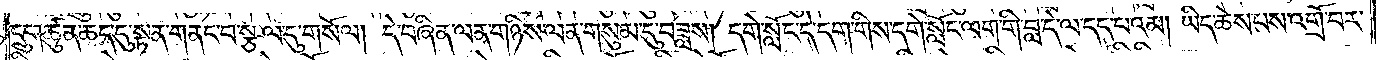དྲུག་ཚུན་ཆད་དུ་སྟན་གནང་བ་སྩལ་དུ་གསོལ། དེ་བཞིན་ལན་གཉིས་ལན་གསུམ་དུ་བཟླས། དགེ་སློང་དེ་དག་གིས་དགེ་སློང་ལག་གི་བླ་དེ་ལ་དད་པའམ། ཡིད་ཆེས་པས་འགྲོ་བར་
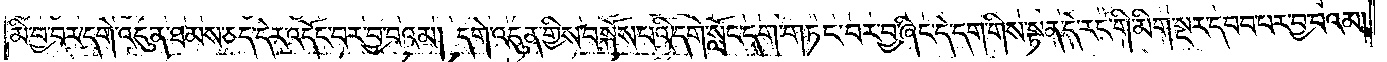མི་བྱ་བར་དགེ་འདུན་ཐམས་ཅད་དེར་འདོང་བར་བྱ་བའམ། དགེ་འདུན་གྱིས་བསྐོས་པའི་དགེ་སློང་དག་གཏང་བར་བྱ་ཞིང་དེ་དག་གིས་སྟན་དེ་རང་གི་མིག་སྔར་དབབ་པར་བྱ་བའམ།
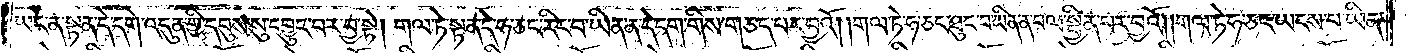ཡང་ན་སྟན་དེ་དགེ་འདུན་གྱི་དབུས་སུ་དབྱུང་བར་བྱ་སྟེ། གལ་ཏེ་སྟན་དེ་ཧ་ཅང་རིང་བ་ཡིན་ན་དེ་དག་གིས་གཅད་པར་བྱའོ། །གལ་ཏེ་ཧ་ཅང་ཐུང་བ་ཡིན་ན་བལ་སྦྱིན་པར་བྱའོ༎གལ་ཏེ་ཧ་ཅང་ཡངས་པ་ཡིན་
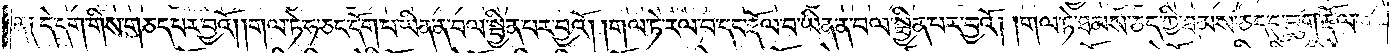ན༑ དེ་དག་གིས་གཅད་པར་བྱའོ། །གལ་ཏེ་ཧ་ཅང་དོག་པ་ཡིན་ན་བལ་སྦྱིན་པར་བྱའོ། །གལ་ཏེ་རལ་པ་དང་རྡོལ་བ་ཡིན་ན་བལ་སྦྱིན་པར་བྱའོ། །གལ་ཏེ་ཐམས་ཅད་ཀྱི་ཐམས་ཅད་དུ་བུག་རྡོལ་
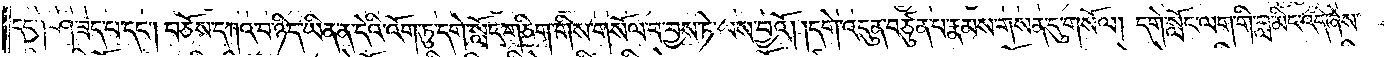དང༌། ཤ་ཟད་པ་དང༌། བཅོས་དཀའ་བ་ཉིད་ཡིན་ན་དེའི་འོག་ཏུ་དགེ་སློང་གཅིག་གིས་གསོལ་བ་བྱས་ཏེ་ལས་བྱའོ། །དགེ་འདུན་བཙུན་པ་རྣམས་གསན་དུ་གསོལ། དགེ་སློང་ལག་གི་བླ་མིང་འདི་ཞེས་
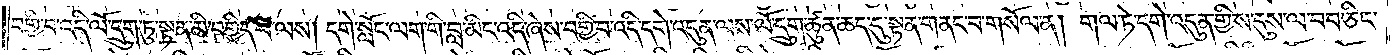བགྱི་བ་འདི་ལོ་དྲུག་ཏུ་སྟན་མི་བགྱིད་པ་ལས། དགེ་སློང་ལག་གི་བླ་མིང་འདི་ཞེས་བགྱི་བ་འདི་དགེ་འདུན་ལས་ལོ་དྲུག་ཚུན་ཆད་དུ་སྟན་གནང་བ་གསོལ་ན། གལ་ཏེ་དགེ་འདུན་གྱིས་དུས་ལ་བབ་ཅིང་
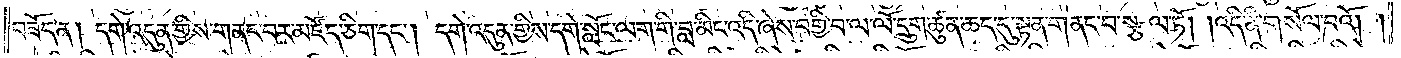བཟོད་ན། དགེ་འདུན་གྱིས་གནང་བར་མཛོད་ཅིག་དང༌། དགེ་འདུན་གྱིས་དགེ་སློང་ལག་གི་བླ་མིང་འདི་ཞེས་བགྱི་བ་ལ་ལོ་དྲུག་ཚུན་ཆད་དུ་སྟན་གནང་བ་སྩལ་ཏོ། །འདི་ནི་གསོལ་བའོ། །
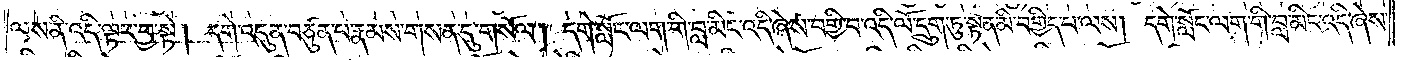ལས་ནི་འདི་ལྟར་བྱ་སྟེ། དགེ་འདུན་བཙུན་པ་རྣམས་གསན་དུ་གསོལ། དགེ་སློང་ལག་གི་བླ་མིང་འདི་ཞེས་བགྱི་བ་འདི་ལོ་དྲུག་ཏུ་སྟན་མི་བགྱིད་པ་ལས། དགེ་སློང་ལག་གི་བླ་མིང་འདི་ཞེས་
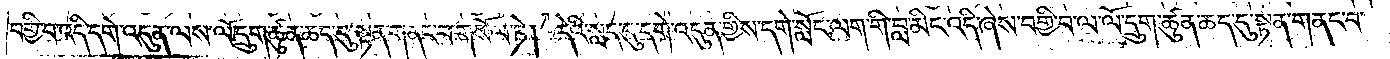བགྱི་བ་འདི་དགེ་འདུན་ལས་ལོ་དྲུག་ཚུན་ཆད་དུ་སྟན་གནང་བ་གསོལ་ཏེ། དེའི་སླད་དུ་དགེ་འདུན་གྱིས་དགེ་སློང་ལག་གི་བླ་མིང་འདི་ཞེས་བགྱི་བ་ལ་ལོ་དྲུག་ཚུན་ཆད་དུ་སྟན་གནང་བ་
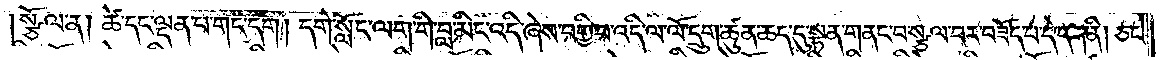སྩོལ་ན། ཚེ་དང་ལྡན་པ་གང་དག། དགེ་སློང་ལག་གི་བླ་མིང་འདི་ཞེས་བགྱི་བ་འདི་ལ་ལོ་དྲུག་ཚུན་ཆད་དུ་སྟན་གནང་བ་སྩལ་བར་བཟོད་པ་དེ་དག་ནི། ཅང་
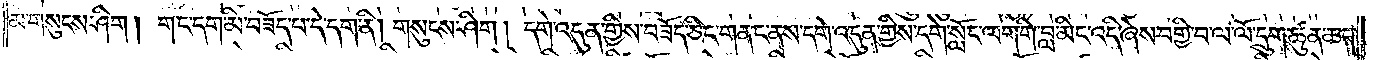མ་གསུངས་ཤིག །གང་དག་མི་བཟོད་པ་དེ་དག་ནི། གསུངས་ཤིག། དགེ་འདུན་གྱིས་བཟོད་ཅིང་གནང་ནས་དགེ་འདུན་གྱིས་དགེ་སློང་ལག་གི་བླ་མིང་འདི་ཞེས་བགྱི་བ་ལ་ལོ་དྲུག་ཚུན་ཆད་
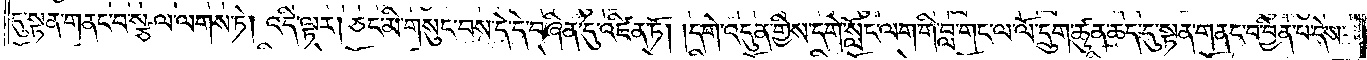དུ་སྟན་གནང་བ་སྩལ་ལགས་ཏེ། འདི་ལྟར། ཅང་མི་གསུང་བས་དེ་དེ་བཞིན་དུ་འཛིན་ཏོ། །དགེ་འདུན་གྱིས་དགེ་སློང་ལག་གི་བླ་གང་ལ་ལོ་དྲུག་ཚུན་ཆད་དུ་སྟན་གནང་བ་བྱིན་པ་དེས་
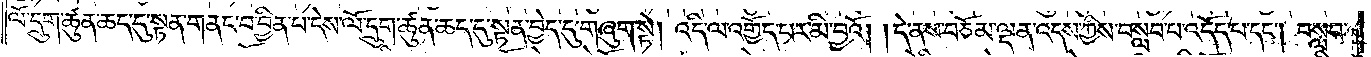ལོ་དྲུག་ཚུན་ཆད་དུ་སྟན་གནང་བ་བྱིན་པ་དེས་ལོ་དྲུག་ཚུན་ཆད་དུ་སྟན་བྱེད་དུ་གཞུག་སྟེ། འདི་ལ་འགྱོད་པར་མི་བྱའོ། །དེ་ནས་བཅོམ་ལྡན་འདས་ཀྱིས་བསླབ་པ་འདོད་པ་དང༌། བསླབ་
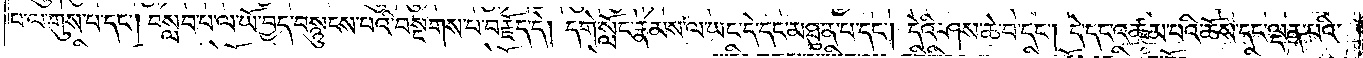པ་ལ་གུས་པ་དང༌། བསླབ་པ་ལ་ཡོ་བྱད་བསྙུངས་པའི་བསྔགས་པ་བརྗོད་དེ། དགེ་སློང་རྣམས་ལ་ཡང་དེ་དང་མཐུན་པ་དང༌། དེའི་ཤས་ཆེ་བ་དང༌། དེ་དང་འཚམ་པའི་ཆོས་དང་ལྡན་པའི་
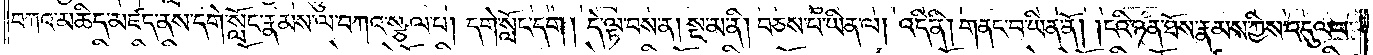བཀའ་མཆིད་མཛད་ནས་དགེ་སློང་རྣམས་ལ་བཀའ་སྩལ་པ། དགེ་སློང་དག། དེ་ལྟ་བས་ན། སྔ་མ་ནི། བཅས་པ་ཡིན་ལ། འདི་ནི། གནང་བ་ཡིན་ནོ། །ངའི་ཉན་ཐོས་རྣམས་ཀྱིས་འདུལ་བ་
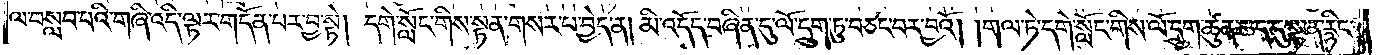ལ་བསླབ་པའི་གཞི་འདི་ལྟར་གདོན་པར་བྱ་སྟེ། དགེ་སློང་གིས་སྟན་གསར་པ་བྱེད་ན། མི་འདོད་བཞིན་དུ་ལོ་དྲུག་ཏུ་བཅང་བར་བྱའོ། །གལ་ཏེ་དགེ་སློང་གིས་ལོ་དྲུག་ཚུན་ཆད་དུ་སྟན་རྙིང་
